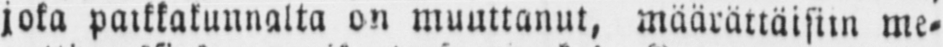joka paikkakunnalta on muuttanut, määrättäisiin me-
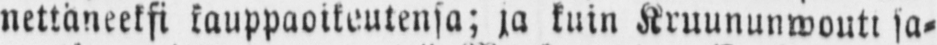nettäneeksi kauppaoikeutensa; ja kuin Kruununwouti sa-
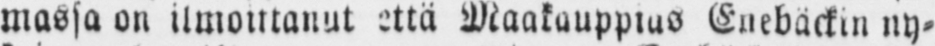massa on ilmoittanut että Maakauppias Enebäckin ny-
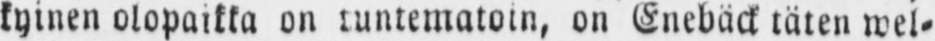kyinen olopaikka on tuntematoin, on Enebäck täten wel-
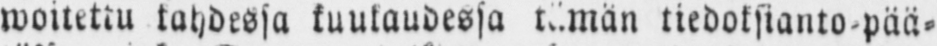woitettu lahdessa kuukaudessa tämän tiedoksianto-pää-
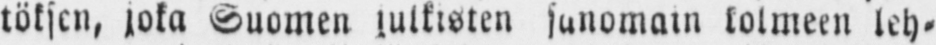töksen, joka Suomen julkisten sanomain kolmeen leh-
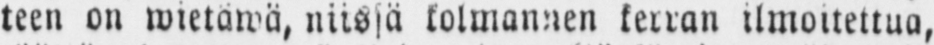teen on wietawä, niissä kolmannen kerran ilmoitettua,
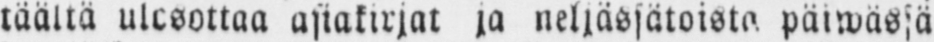täällä ulosottoa asiakirjat ja neljässätoista päiwässä
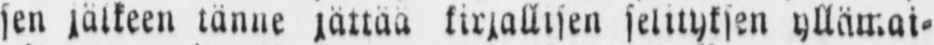sen jälkeen tänne jättää kirjallisen selityksen yllämai-
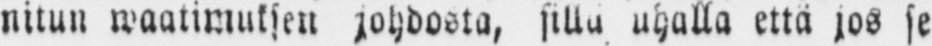nitun waatimuksen johdosta, silla uhalla että jos se
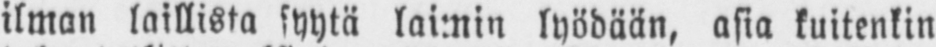ilman laillista syytä laimin lyödään, asia kuitenkin
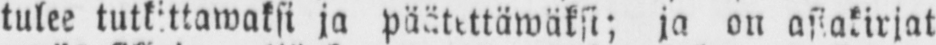tulee tutkittawaksi ja päätwttäwäksi; ja on asiakirjat
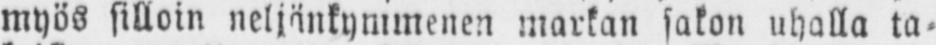myös silloin neljänkymmenen markan sakon uhalla ta-
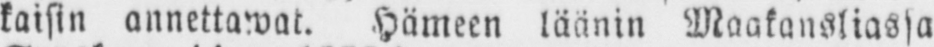kaisin annettawat. Hämeen läänin Maakansliassa
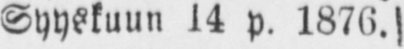Syyskuun 14 p. 1876.
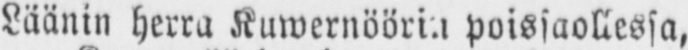Läänin herra Kuwernöörin poissaollessa,
